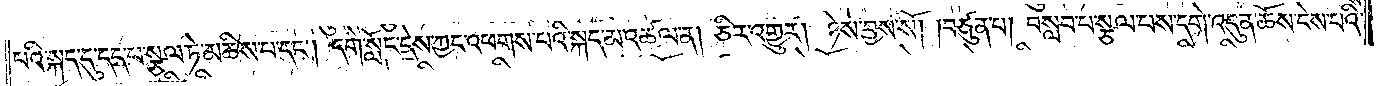པའི་སྐད་དུ་དད་པ་སྩལ་ཏེ་མཆིས་པ་དང༌། དགེ་སློང་དེས་ཀྱང་འཕགས་པའི་སྐད་མ་འཚལ་ན། ཅིར་འགྱུར། ཉེས་བྱས་སོ། །བཙུན་པ། བསླབ་པ་སྩལ་པས་དགེ་འདུན་ཆོས་ངེས་པའི་
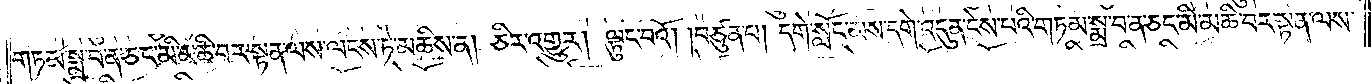གཏམ་སྨྲ་བ་ན་ཅང་མི་མཆི་བར་སྟན་ལས་ལངས་ཏེ་མཆིས་ན། ཅིར་འགྱུར། ལྟུང་བའོ། །བཙུན་པ། དགེ་སློང་མས་དགེ་འདུན་ངེས་པའི་གཏམ་སྨྲ་བ་ན་ཅང་མི་མཆི་བར་སྟན་ལས་
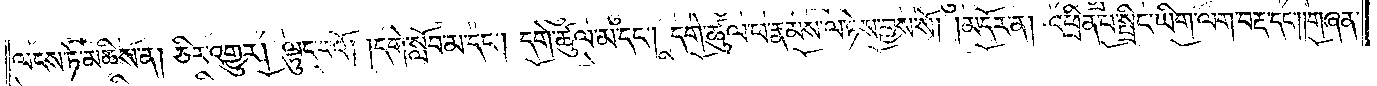ལངས་ཏེ་མཆིས་ན། ཅིར་འགྱུར། ལྟུང་བའོ། །དགེ་སློབ་མ་དང༌། དགེ་ཚུལ་མ་དང༌། དགེ་ཚུལ་ཕ་རྣམས་ལ་ཉེས་བྱས་སོ།    །མདོར་ན། འཕྲིན་པ་སྤྲིང་ཡིག་ལག་བརྡ་དང༌། །གཞན་
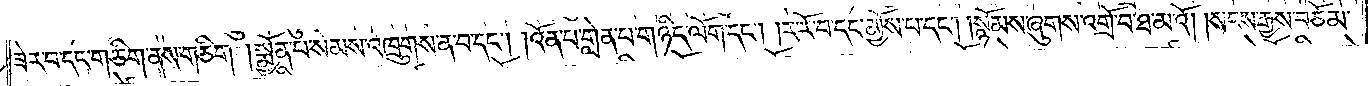ཟེར་བ་དང་གཅིག་ནས་གཅིག །སྨྱོན་པ་སེམས་འཁྲུགས་ན་བ་དང༌། །འོན་པ་གླེན་པ་གཉིད་ལོག་དང༌། །ར་རོ་བ་དང་མྱོས་པ་དང༌། །སྙོམས་ཞུགས་འགྲོ་བ་ཐ་མའོ། །སངས་རྒྱས་བཅོམ་
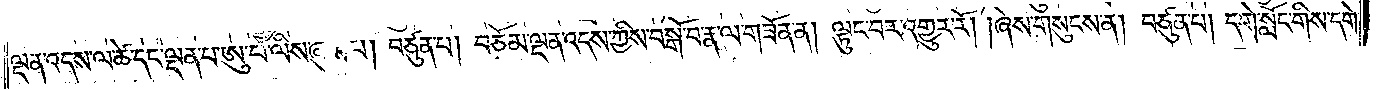ལྡན་འདས་ལ་ཚེ་དང་ལྡན་པ་ཨུ་པ་ལིས་ཞུས་པ། བཙུན་པ། བཅོམ་ལྡན་འདས་ཀྱིས་བསྒོ་བ་རྣ་ལ་གཟོན་ན། ལྟུང་བར་འགྱུར་རོ། །ཞེས་གསུངས་ན། བཙུན་པ། དགེ་སློང་གིས་དགེ་
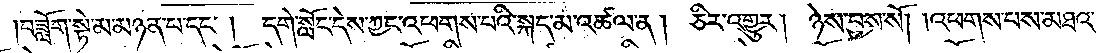།བཟློག་སྟེ་མ་མཉན་པ་དང༌། དགེ་སློང་དེས་ཀྱང་འཕགས་པའི་སྐད་མ་འཚལ་ན། ཅིར་འགྱུར། ཉེས་བྱས་སོ། །འཕགས་པས་མཐའ་
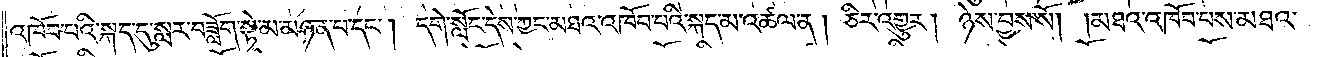འཁོབ་པའི་སྐད་དུ་སླར་བཟློག་སྟེ་མ་མཉན་པ་དང༌། དགེ་སློང་དེས་ཀྱང་མཐའ་འཁོབ་པའི་སྐད་མ་འཚལ་ན། ཅིར་འགྱུར། ཉེས་བྱས་སོ། །མཐའ་འཁོབ་པས་མཐའ་
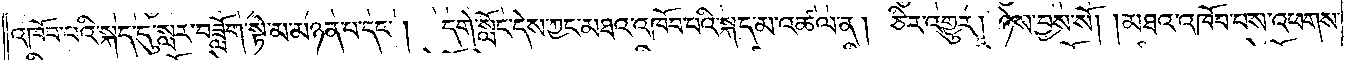འཁོབ་པའི་སྐད་དུ་སླར་བཟློག་སྟེ་མ་མཉན་པ་དང༌། དགེ་སློང་དེས་ཀྱང་མཐའ་འཁོབ་པའི་སྐད་མ་འཚལ་ན། ཅིར་འགྱུར། ཉེས་བྱས་སོ། །མཐའ་འཁོབ་པས་འཕགས་
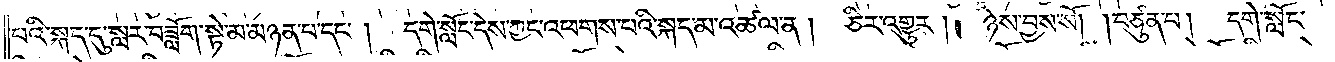པའི་སྐད་དུ་སླར་བཟློག་སྟེ་མ་མཉན་པ་དང༌། དགེ་སློང་དེས་ཀྱང་འཕགས་པའི་སྐད་མ་འཚལ་ན། ཅིར་འགྱུར། ཉེས་བྱས་སོ། །བཙུན་པ། དགེ་སློང་
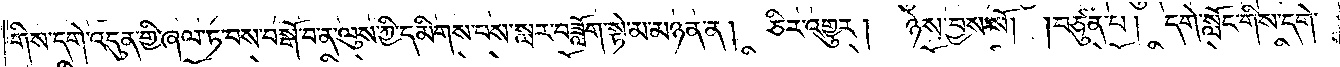གིས་དགེ་འདུན་གྱི་ཞལ་ཏ་བས་བསྒོ་བ་ན་ལུས་ཀྱི་དམིགས་པས་སླར་བཟློག་སྟེ་མ་མཉན་ན། ཅིར་འགྱུར། ཉེས་བྱས་སོ། །བཙུན་པ། དགེ་སློང་གིས་དགེ་
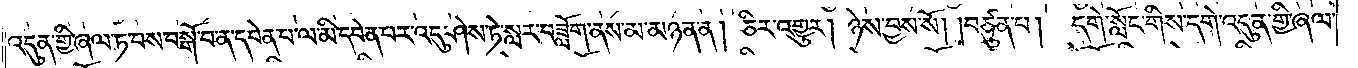འདུན་གྱི་ཞལ་ཏ་བས་བསྒོ་བ་ན་དབེན་པ་ལ་མི་དབེན་པར་འདུ་ཤེས་ཏེ་སླར་བཟློག་ནས་མ་མཉན་ན། ཅིར་འགྱུར། ཉེས་བྱས་སོ། །བཙུན་པ། དགེ་སློང་གིས་དགེ་འདུན་གྱི་ཞལ་
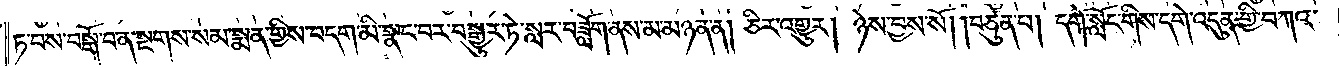ཏ་བས་བསྒོ་བ་ན་སྔགས་སམ་སྨན་གྱིས་བདག་མི་སྣང་བར་བསྒྱུར་ཏེ་སླར་བཟློག་ནས་མ་མཉན་ན། ཅིར་འགྱུར། ཉེས་བྱས་སོ། །བཙུན་པ། དགེ་སློང་གིས་དགེ་འདུན་གྱི་བཀའ་
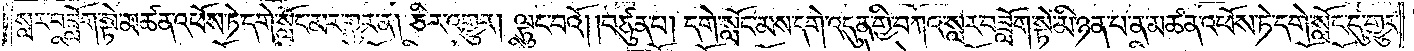སླར་བཟློག་སྟེ་མཚན་འཕོས་ཏེ་དགེ་སློང་མར་གྱུར་ན། ཅིར་འགྱུར། ལྟུང་བའོ། །བཙུན་པ། དགེ་སློང་མས་དགེ་འདུན་གྱི་བཀའ་སླར་བཟློག་སྟེ་མི་ཉན་པ་ན་མཚན་འཕོས་ཏེ་དགེ་སློང་དུ་གྱུར་
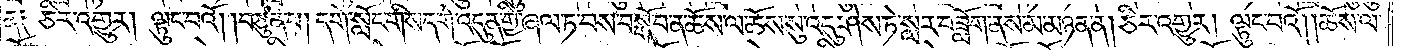ན༑ ཅིར་འགྱུར། ལྟུང་བའོ། །བཙུན་པ། དགེ་སློང་གིས་དགེ་འདུན་གྱི་ཞལ་ཏ་བས་བསྒོ་བ་ན་ཆོས་ལ་ཆོས་སུ་འདུ་ཤེས་ཏེ་སླར་བཟློག་ནས་མ་མཉན་ན། ཅིར་འགྱུར། ལྟུང་བའོ། །ཆོས་ལ་
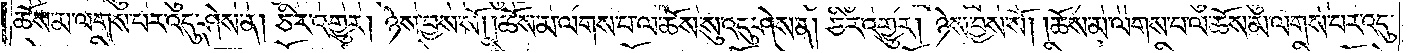ཆོས་མ་ལགས་པར་འདུ་ཤེས་ན། ཅིར་འགྱུར། ཉེས་བྱས་སོ། །ཆོས་མ་ལགས་པ་ལ་ཆོས་སུ་འདུ་ཤེས་ན། ཅིར་འགྱུར། ཉེས་བྱས་སོ། །ཆོས་མ་ལགས་པ་ལ་ཆོས་མ་ལགས་པར་འདུ་
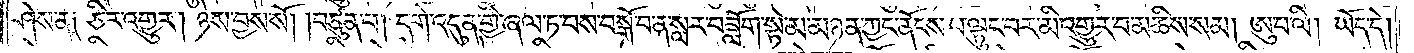ཤེས་ན༑ ཅིར་འགྱུར། ཉེས་བྱས་སོ། །བཙུན་པ། དགེ་འདུན་གྱི་ཞལ་ཏ་བས་བསྒོ་བ་ན་སླར་བཟློག་སྟེ་མ་མཉན་ཀྱང་ནོངས་པ་ལྟུང་བར་མི་འགྱུར་བ་མཆིས་སམ། ཨུ་པ་ལི། ཡོད་དེ།
